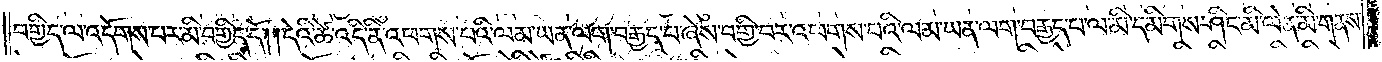བགྱིད་ལ་འདོགས་པར་མི་བགྱིད་དོ། །དེའི་ཚེ་འདི་ནི་འཕགས་པའི་ལམ་ཡན་ལག་བརྒྱད་པ་ཞེས་བགྱི་བར་འཕགས་པའི་ལམ་ཡན་ལག་བརྒྱད་པ་ལ་མི་དམིགས་ཤིང་མི་ལེན་མི་གནས་
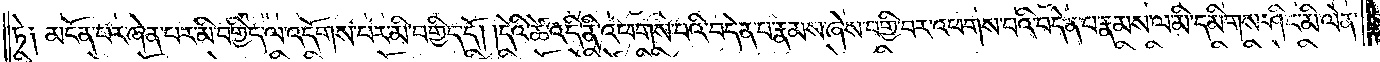ཏེ༑ མངོན་པར་ཞེན་པར་མི་བགྱིད་ལ་འདོགས་པར་མི་བགྱིད་དོ། །དེའི་ཚེ་འདི་ནི་འཕགས་པའི་བདེན་པ་རྣམས་ཞེས་བགྱི་བར་འཕགས་པའི་བདེན་པ་རྣམས་ལ་མི་དམིགས་ཤིང་མི་ལེན་
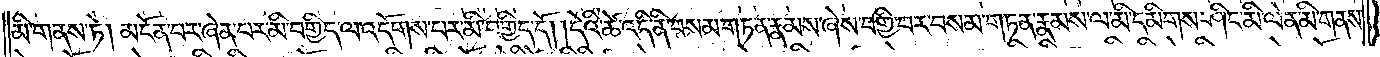མི་གནས་ཏེ། མངོན་པར་ཞེན་པར་མི་བགྱིད་ལ་འདོགས་པར་མི་བགྱིད་དོ། །དེའི་ཚེ་འདི་ནི་བསམ་གཏན་རྣམས་ཞེས་བགྱི་བར་བསམ་གཏན་རྣམས་ལ་མི་དམིགས་ཤིང་མི་ལེན་མི་གནས་
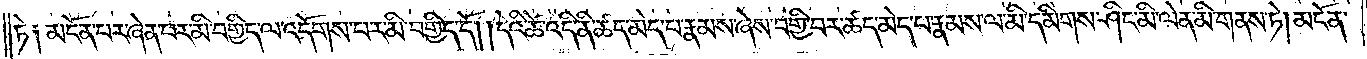ཏེ༑ མངོན་པར་ཞེན་པར་མི་བགྱིད་ལ་འདོགས་པར་མི་བགྱིད་དོ། །དེའི་ཚེ་འདི་ནི་ཚད་མེད་པ་རྣམས་ཞེས་བགྱི་བར་ཚད་མེད་པ་རྣམས་ལ་མི་དམིགས་ཤིང་མི་ལེན་མི་གནས་ཏེ། མངོན་
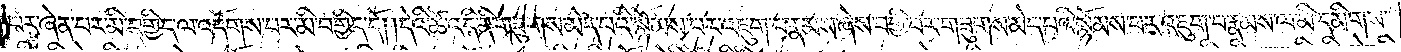པར་ཞེན་པར་མི་བགྱིད་ལ་འདོགས་པར་མི་བགྱིད་དོ། །དེའི་ཚེ་འདི་ནི་གཟུགས་མེད་པའི་སྙོམས་པར་འཇུག་པ་རྣམས་ཞེས་བགྱི་བར་གཟུགས་མེད་པའི་སྙོམས་པར་འཇུག་པ་རྣམས་ལ་མི་དམིགས་
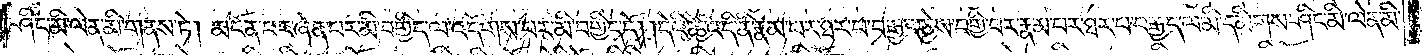ཤིང་མི་ལེན་མི་གནས་ཏེ། མངོན་པར་ཞེན་པར་མི་བགྱིད་ལ་འདོགས་པར་མི་བགྱིད་དོ། །དེའི་ཚེ་འདི་ནི་རྣམ་པར་ཐར་པ་བརྒྱད་ཅེས་བགྱི་བར་རྣམ་པར་ཐར་པ་བརྒྱད་ལ་མི་དམིགས་ཤིང་མི་ལེན་མི་
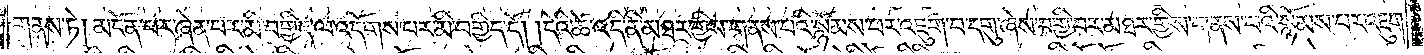གནས་ཏེ། མངོན་པར་ཞེན་པར་མི་བགྱིད་ལ་འདོགས་པར་མི་བགྱིད་དོ། །དེའི་ཚེ་འདི་ནི་མཐར་གྱིས་གནས་པའི་སྙོམས་པར་འཇུག་པ་དགུ་ཞེས་བགྱི་བར་མཐར་གྱིས་གནས་པའི་སྙོམས་པར་འཇུག་
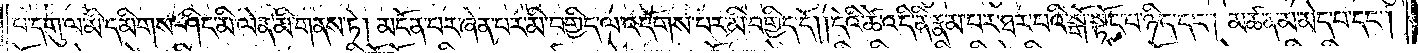པ་དགུ་ལ་མི་དམིགས་ཤིང་མི་ལེན་མི་གནས་ཏེ། མངོན་པར་ཞེན་པར་མི་བགྱིད་ལ་འདོགས་པར་མི་བགྱིད་དོ། །དེའི་ཚེ་འདི་ནི་རྣམ་པར་ཐར་པའི་སྒོ་སྟོང་པ་ཉིད་དང༌། མཚན་མ་མེད་པ་དང༌།
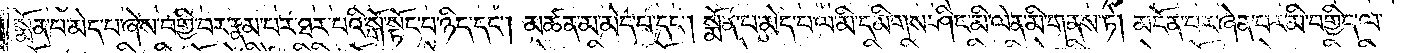སྨོན་པ་མེད་པ་ཞེས་བགྱི་བར་རྣམ་པར་ཐར་པའི་སྒོ་སྟོང་པ་ཉིད་དང༌། མཚན་མ་མེད་པ་དང༌། སྨོན་པ་མེད་པ་ལ་མི་དམིགས་ཤིང་མི་ལེན་མི་གནས་ཏེ། མངོན་པར་ཞེན་པར་མི་བགྱིད་ལ་
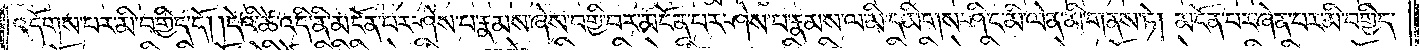འདོགས་པར་མི་བགྱིད་དོ། །དེའི་ཚེ་འདི་ནི་མངོན་པར་ཤེས་པ་རྣམས་ཞེས་བགྱི་བར་མངོན་པར་ཤེས་པ་རྣམས་ལ་མི་དམིགས་ཤིང་མི་ལེན་མི་གནས་ཏེ། མངོན་པར་ཞེན་པར་མི་བགྱིད་
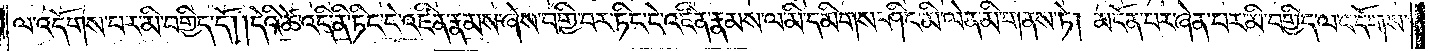ལ་འདོགས་པར་མི་བགྱིད་དོ། །དེའི་ཚེ་འདི་ནི་ཏིང་ངེ་འཛིན་རྣམས་ཞེས་བགྱི་བར་ཏིང་ངེ་འཛིན་རྣམས་ལ་མི་དམིགས་ཤིང་མི་ལེན་མི་གནས་ཏེ། མངོན་པར་ཞེན་པར་མི་བགྱིད་ལ་འདོགས་
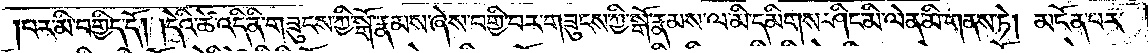པར་མི་བགྱིད་དོ། །དེའི་ཚེ་འདི་ནི་གཟུངས་ཀྱི་སྒོ་རྣམས་ཞེས་བགྱི་བར་གཟུངས་ཀྱི་སྒོ་རྣམས་ལ་མི་དམིགས་ཤིང་མི་ལེན་མི་གནས་ཏེ། མངོན་པར་
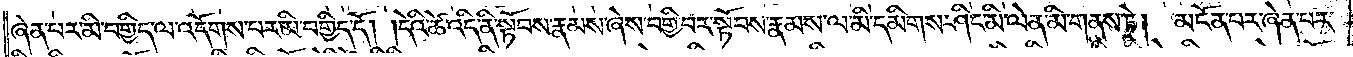ཞེན་པར་མི་བགྱིད་ལ་འདོགས་པར་མི་བགྱིད་དོ། །དེའི་ཚེ་འདི་ནི་སྟོབས་རྣམས་ཞེས་བགྱི་བར་སྟོབས་རྣམས་ལ་མི་དམིགས་ཤིང་མི་ལེན་མི་གནས་ཏེ། མངོན་པར་ཞེན་པར་
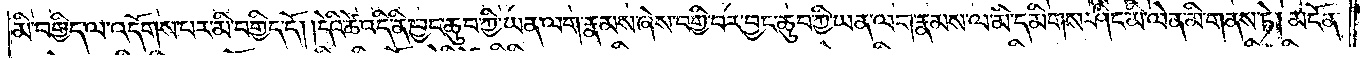མི་བགྱིད་ལ་འདོགས་པར་མི་བགྱིད་དོ། །དེའི་ཚེ་འདི་ནི་བྱང་ཆུབ་ཀྱི་ཡན་ལག་རྣམས་ཞེས་བགྱི་བར་བྱང་ཆུབ་ཀྱི་ཡན་ལག་རྣམས་ལ་མི་དམིགས་ཤིང་མི་ལེན་མི་གནས་ཏེ། མངོན་
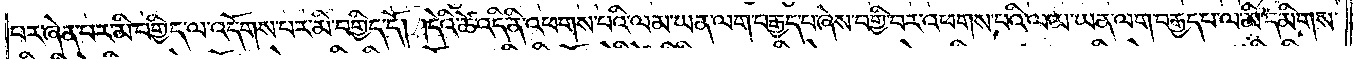པར་ཞེན་པར་མི་བགྱིད་ལ་འདོགས་པར་མི་བགྱིད་དོ། །དེའི་ཚེ་འདི་ནི་འཕགས་པའི་ལམ་ཡན་ལག་བརྒྱད་པ་ཞེས་བགྱི་བར་འཕགས་པའི་ལམ་ཡན་ལག་བརྒྱད་པ་ལ་མི་དམིགས་
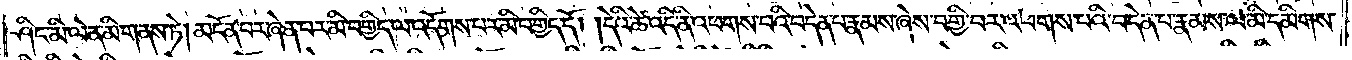ཤིང་མི་ལེན་མི་གནས་ཏེ། མངོན་པར་ཞེན་པར་མི་བགྱིད་ལ་འདོགས་པར་མི་བགྱིད་དོ། །དེའི་ཚེ་འདི་ནི་འཕགས་པའི་བདེན་པ་རྣམས་ཞེས་བགྱི་བར་འཕགས་པའི་བདེན་པ་རྣམས་ལ་མི་དམིགས་
